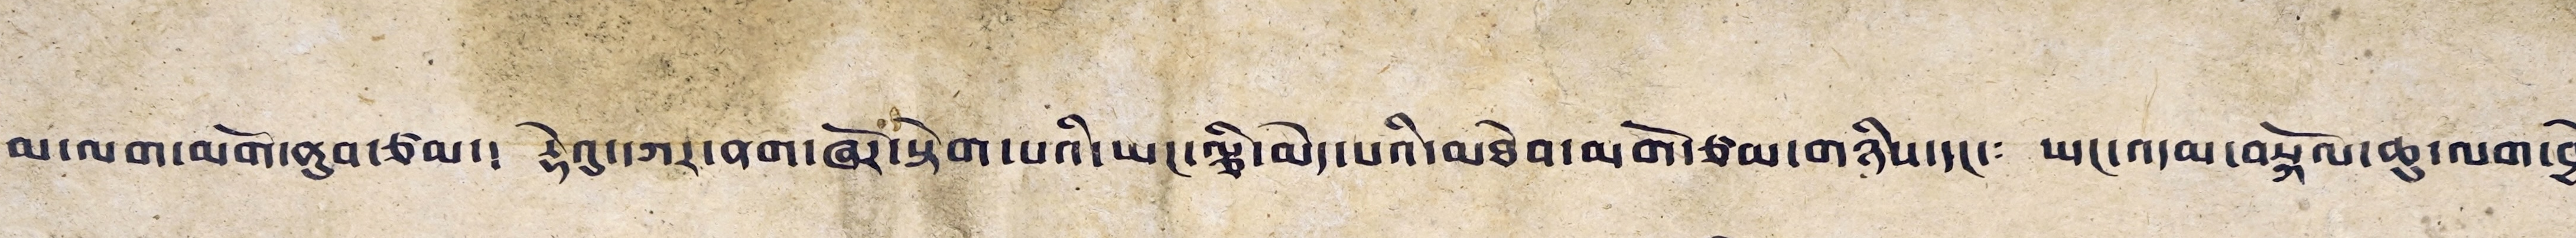མ་ལག་མགོ་ནུབ་ཙམ་༴ རྡེའུ་དཀར་ནག་ཞོར་སྟེག་པའི་ཡང་ལྕི་མེད་པའི་མཐེབ་མགོ་ཙམ་གཉིས་དང་༴ ཡང་འདམ་བསྐོལ་ཆུ་ལག་བྱེད༴
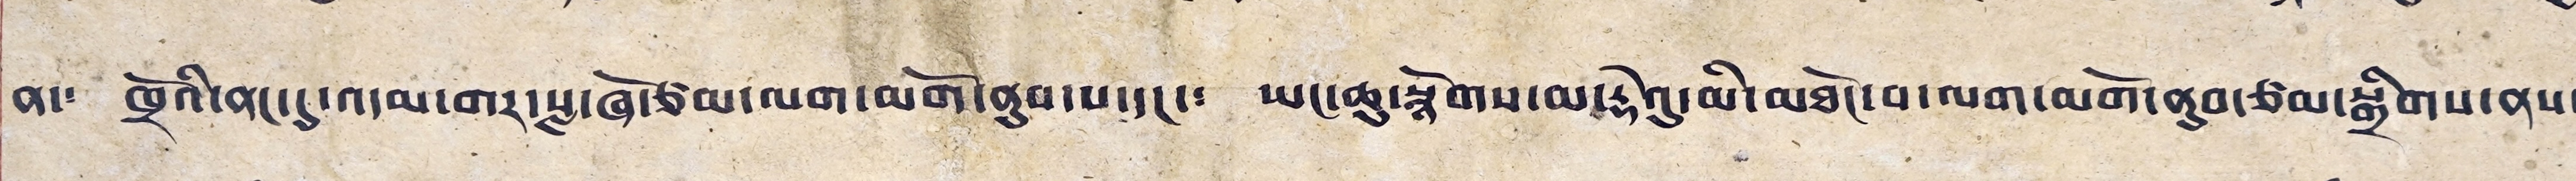ན་༴ ཁྲོའི་ནང་དུ་འདམ་གར་སླ་ཞོ་ཙམ་ལག་མགོ་ནུབ་པ་དང་༴ ཡང་ཆུ་སྙོགས་མ་རྡེའུ་མི་མཐོང་བ་ལག་མགོ་ནུབ་ཙམ་སྒྲིགས་ནས་༴
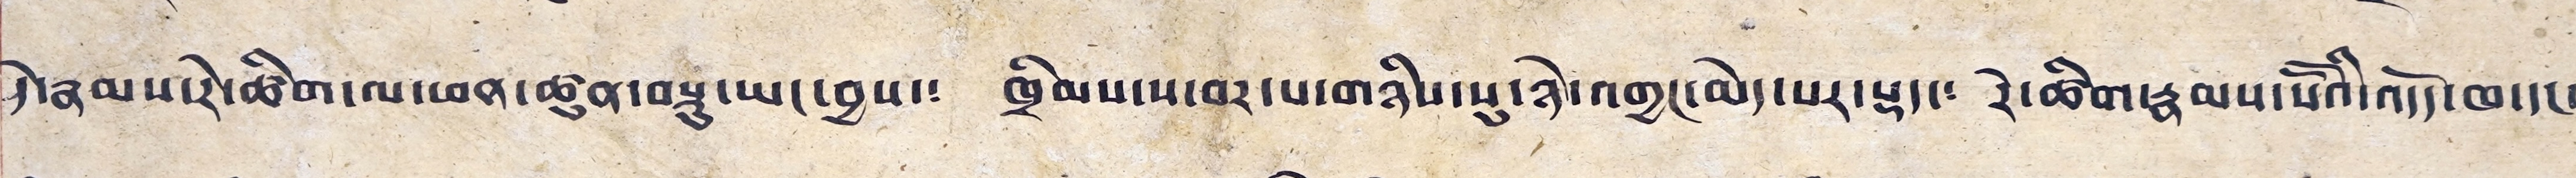དེ་རྣམས་རེ་ཚིག་ལ་ཕན་ཚུན་བསྡུ་ཡང་བྱས་༴ ཁྲིམས་ས་བར་པ་གཉིས་སུ་ཉེ་འགྱང་མེད་པར་སྡད་༴ རེ་ཚིག་རྣམས་སོ་སོའི་འདོད་ཁ་དང་
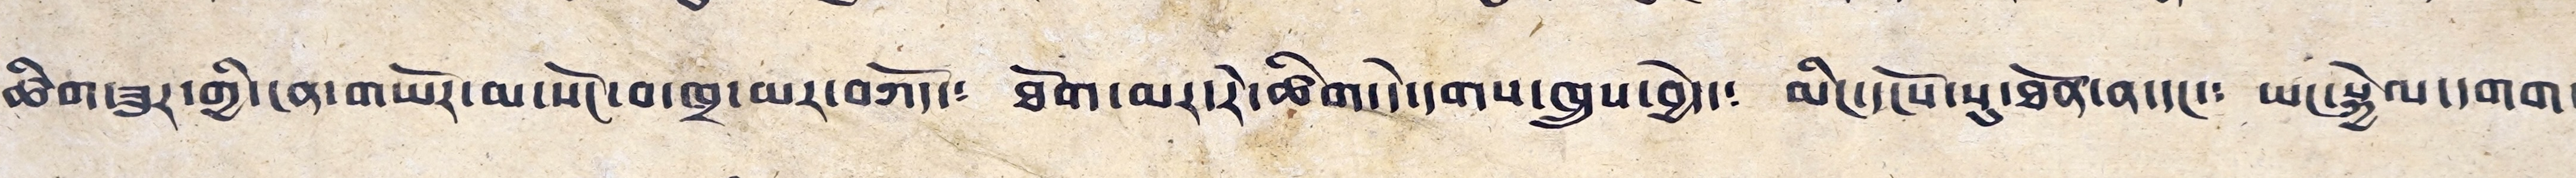ཚིག་ཟུར་གྱི་ངན་གཡོར་མ་སོང་བ་ཁྲ་མར་བཀོད་༴ ཐོག་མར་རེ་ཚིག་དེ་དགས་ཁྲུས་བྱེད་༴ མིང་དངོས་སུ་ཐོན་ན་དང་༴ ཡང་སྐྱེལ་དགག་
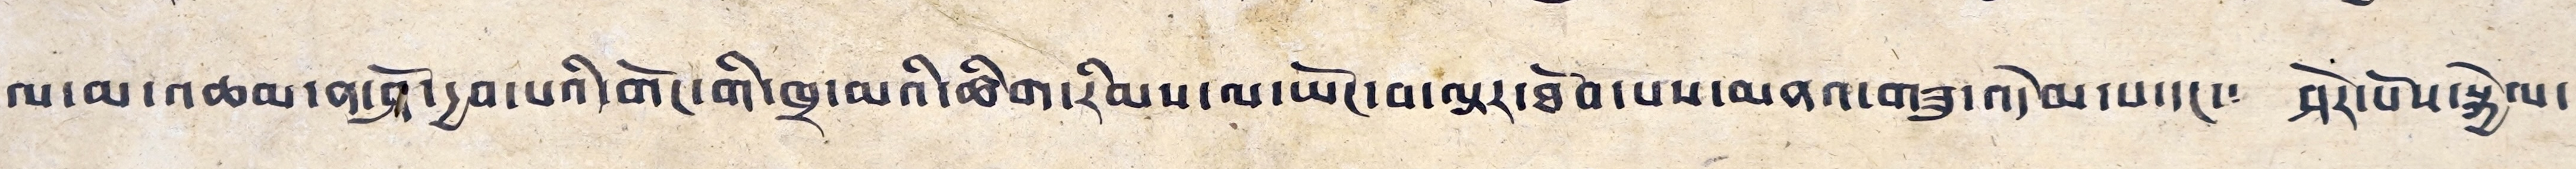ལ་མ་འཆམ་ན་ཤོ་དྱབ་པའི་གོང་གི་ཁྲ་མའི་ཚིག་རིམས་ལ་ཡོང་བ་ལྟར་ཐོབ་པས་མནའ་གཟུ་འདེམ་པ་དང་༴ ཤེར་པོས་སྐྱེལ་
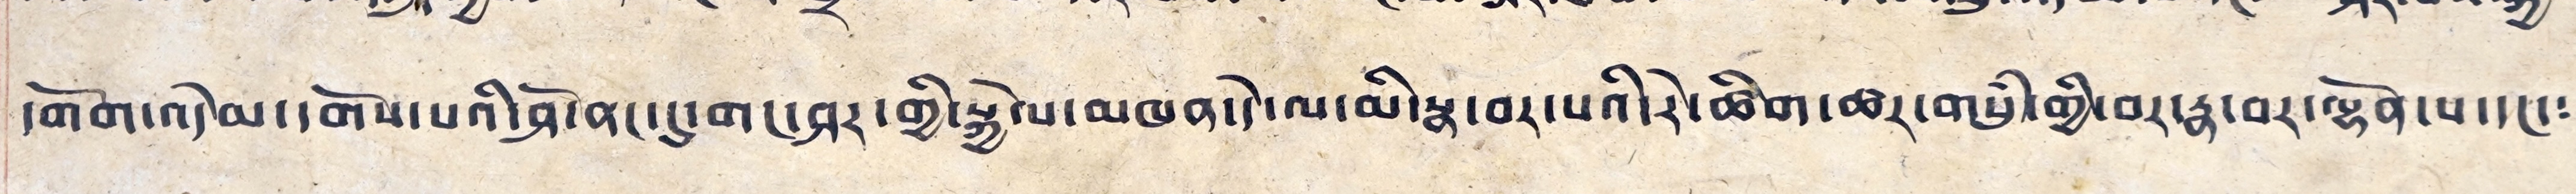དགོག་འདེམ་དགོས་པའི་ཤོ་ནང་དུ་གང་ཤར་གྱི་སྐྱེལ་མཁན་དེ་ལ་མི་སྣ་བར་པའི་རེ་ཚིག་ཚར་གསུཾ་གྱི་བར་རྣ་བར་ལྷོན་པ་དང་༴
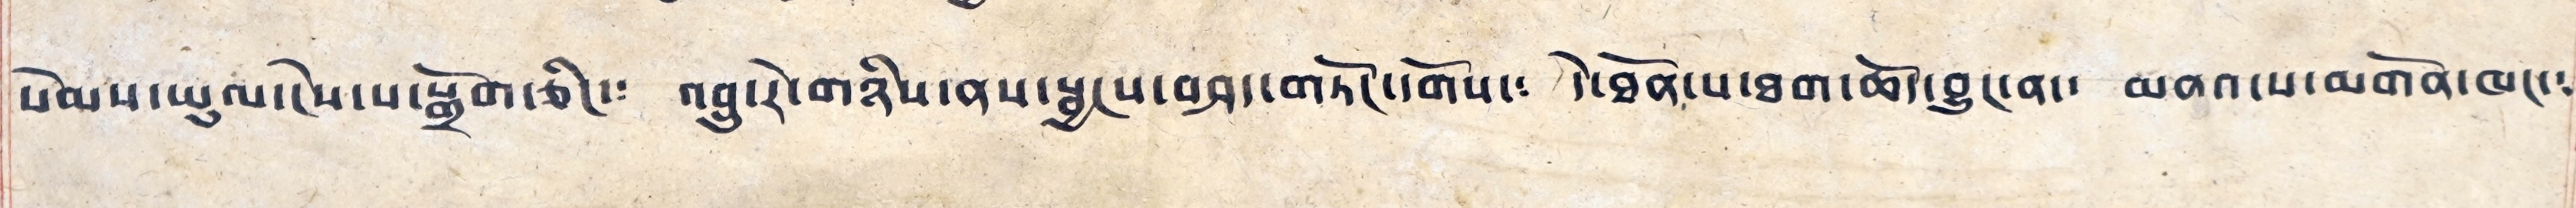སེམས་ཡུལ་ངེས་པ་སྒྲོག་ཅིང་༴ འབྲུ་རེ་གཉིས་ནས་སྦྱངས་བཤད་གཏོང་དགོས་༴ དེ་ཐོན་པ་ཐག་ཆོད་བྱུང་ན་༴ མནའ་པ་མགོན་ཁང་༴
